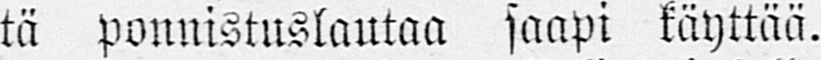tä ponnistuslautaa saapi käyttää.
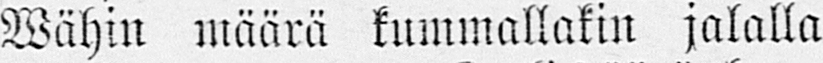Wähin määrä kummallakin jalalla
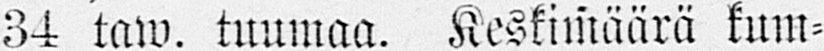34 taw. tuumaa. Keskimäärä kum-
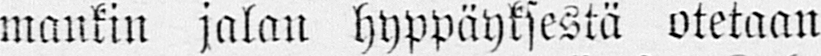mankin jalan hyppäyksestä otetaan
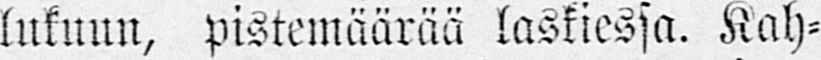lukuun, pistemäärää laskiessa. Kah-
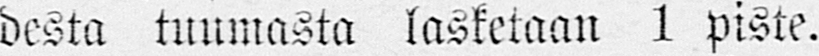desta tuumasta lasketaan 1 piste.
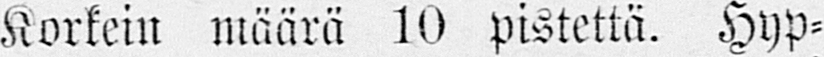Korkein määrä 10 pistettä. Hyp-
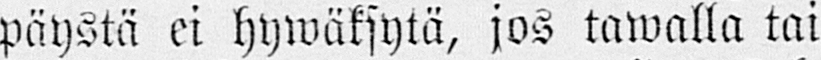päystä ei hywäksytä, jos tawalla tai
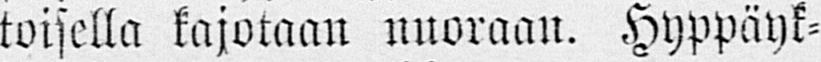toisella kajotaan nuoraan. Hyppäyk-
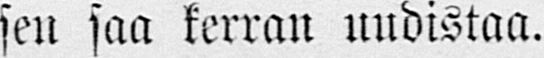sen saa kerran uudistaa.
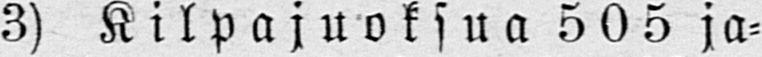3) Kilpajuoksua 505 ja-
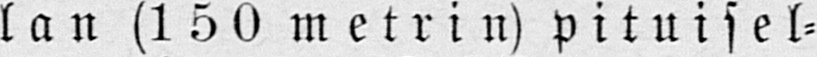lan (150 metrin) pituisel-
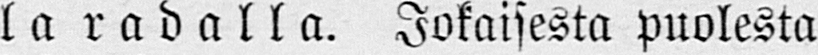la radalla. Jokaisesta puolesta
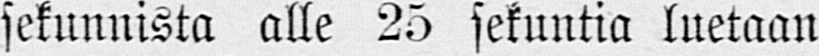sekunnista alle 25 sekuntia luetaan
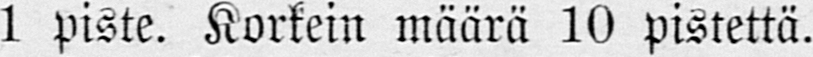1 piste. Korkein määrä 10 pistettä.
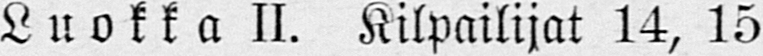Luokka II. Kilpailijat 14, 15
